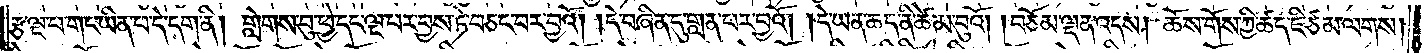རྩ་ལྔ་པ་གང་ཡིན་པ་དེ་དག་ནི། གླེགས་བུ་ཕྱེ་དང་ལྔ་པར་བྱས་ཏེ་བཅང་བར་བྱའོ། །དེ་བཞིན་དུ་གླན་པར་བྱའོ། །དེ་ཡན་ཆད་ནི་ཚེམ་བུའོ། །བཅོམ་ལྡན་འདས། ཆོས་གོས་ཀྱི་ཚད་ཇི་ཙམ་ལགས།
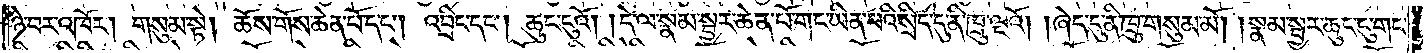ཉེ་བར་འཁོར། གསུམ་སྟེ། ཆོས་གོས་ཆེན་པོ་དང༌། འབྲིང་དང༌། ཆུང་ངུའོ། །དེ་ལ་སྣམ་སྦྱར་ཆེན་པོ་གང་ཡིན་པའི་སྲིང་དུ་ནི་ཁྲུ་ལྔའོ། །ཞེང་དུ་ནི་ཁྲུ་གསུམ་མོ། །སྣམ་སྦྱར་ཆུང་ངུ་གང་
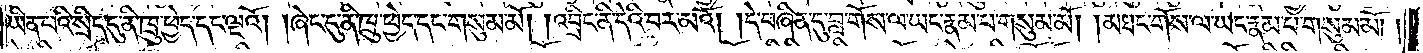ཡིན་པའི་སྲིད་དུ་ནི་ཁྲུ་ཕྱེད་དང་ལྔའོ། །ཞེང་དུ་ནི་ཁྲུ་ཕྱེད་དང་གསུམ་མོ། །འབྲིང་ནི་དེའི་བར་མའོ། །དེ་བཞིན་དུ་བླ་གོས་ལ་ཡང་རྣམ་པ་གསུམ་མོ། །མཐང་གོས་ལ་ཡང་རྣམ་པ་གསུམ་མོ། །
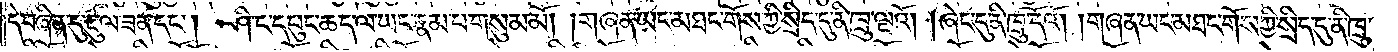དེ་བཞིན་དུ་རྡུ་ལ་ཟན་དང༌། ཤིང་དཔུང་ཆད་ལ་ཡང་རྣམ་པ་གསུམ་མོ། །གཞན་ཡང་མཐང་གོས་ཀྱི་སྲིད་དུ་ནི་ཁྲུ་ལྔའོ། །ཞེང་དུ་ནི་ཁྲུ་དོའོ། །གཞན་ཡང་མཐང་གོས་ཀྱི་སྲིད་དུ་ནི་ཁྲུ་
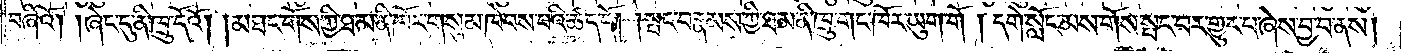བཞིའོ། །ཞེང་དུ་ནི་ཁྲུ་དོའོ། །མཐང་གོས་ཀྱི་ཐ་མ་ནི་ཁོར་གསུམ་ཁེབས་པའི་ཚད་དོ། །སྤང་བ་རྣམས་ཀྱི་ཐ་མ་ནི་ཁྲུ་གང་ཁོར་ཡུག་གོ། དགེ་སློང་མས་གོས་སྤང་བར་གྱུར་པ་ཞེས་བྱ་བ་ནས།
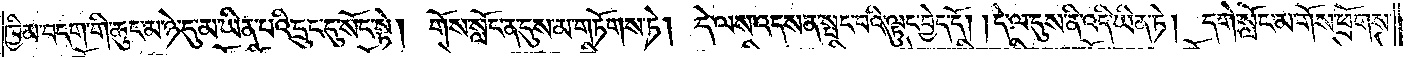ཁྱིམ་བདག་གི་ཆུང་མ་ཉེ་དུ་མ་ཡིན་པའི་དྲུང་དུ་སོང་སྟེ། གོས་སློང་ན་དུས་མ་གཏོགས་ཏེ། དེ་ལས་འདས་ན་སྤང་བའི་ལྟུང་བྱེད་དོ། །དེ་ལ་དུས་ནི་འདི་ཡིན་ཏེ། དགེ་སློང་མ་གོས་ཕྲོགས་
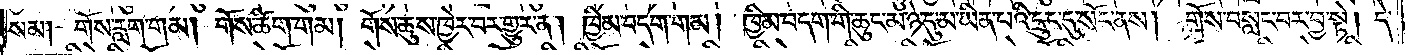སམ། གོས་རླག་གམ། གོས་ཚིག་གམ། གོས་ཆུས་ཁྱེར་བར་གྱུར་ན། ཁྱིམ་བདག་གམ། ཁྱིམ་བདག་གི་ཆུང་མ་ཉེ་དུ་མ་ཡིན་པའི་དྲུང་དུ་སོང་ནས། གོས་བསླང་བར་བྱ་སྟེ། དེ་
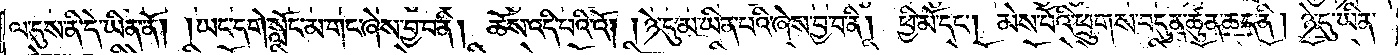ལ་དུས་ནི་དེ་ཡིན་ནོ། །ཡང་དགེ་སློང་མ་གང་ཞེས་བྱ་བ་ནི། ཆོས་འདི་པའི་འོ། །ཉེ་དུ་མ་ཡིན་པའི་ཞེས་བྱ་བ་ནི། ཕྱི་མོ་དང༌། མེས་པོའི་ཕྲུགས་བདུན་ཚུན་ཆད་ནི། ཉེ་དུ་ཡིན་
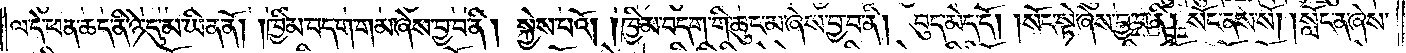ལ་དེ་ཕན་ཆད་ནི་ཉེ་དུ་མ་ཡིན་ནོ། །ཁྱིམ་བདག་གམ་ཞེས་བྱ་བ་ནི། སྐྱེས་པའོ། །ཁྱིམ་བདག་གི་ཆུང་མ་ཞེས་བྱ་བ་ནི། བུད་མེད་དོ། །སོང་སྟེ་ཞེས་བྱ་བ་ནི། སོང་ནས་སོ། །སློང་ན་ཞེས་
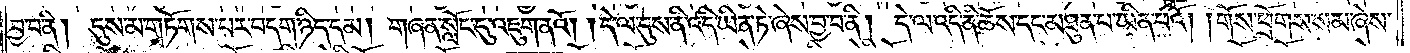བྱ་བ་ནི། དུས་མ་གཏོགས་པར་བདག་ཉིད་དམ། གཞན་སློང་དུ་འཇུག་ནའོ། །དེ་ལ་དུས་ནི་འདི་ཡིན་ཏེ་ཞེས་བྱ་བ་ནི། དེ་ལ་འདི་ནི་ཆོས་དང་མཐུན་པ་ཡིན་པའོ། །གོས་ཕྲོགས་སམ་ཞེས་
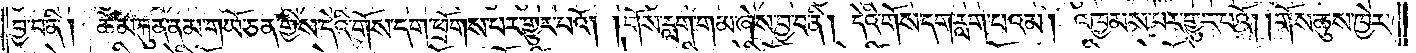བྱ་བ་ནི། ཆོམ་རྐུན་ནམ་གཡོ་ཅན་གྱིས་དེའི་གོས་དག་ཕྲོགས་པར་གྱུར་པའོ། །གོས་རླག་གམ་ཞེས་བྱ་བ་ནི། དེའི་གོས་དག་རླག་པའམ། འཁྱམས་པར་གྱུར་པའོ། །གོས་ཆུས་ཁྱེར་
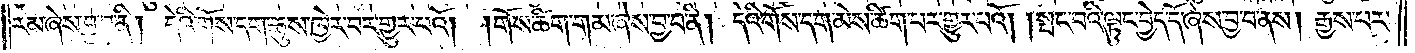རམ་ཞེས་བྱ་བ་ནི། དེའི་གོས་དག་ཆུས་ཁྱེར་བར་གྱུར་པའོ། །གོས་ཚིག་གམ་ཞེས་བྱ་བ་ནི། དེའི་གོས་དག་མེས་ཚིག་པར་གྱུར་པའོ། །སྤང་བའི་ལྟུང་བྱེད་དོ་ཞེས་བྱ་བ་ནས། རྒྱས་པར་
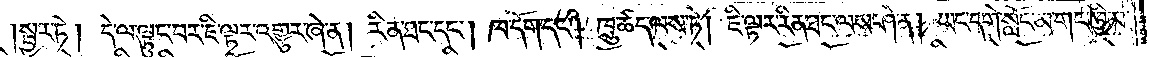སྦྱར་ཏེ། དེ་ལ་ལྟུང་བར་ཇི་ལྟར་འགྱུར་ཞེ་ན། རིན་ཐང་དང༌། ཁ་དོག་དང༌། ཁྲུ་ཚད་ལས་ཏེ། ཇི་ལྟར་རིན་ཐང་ལས་ཤེ་ན། ཡང་དགེ་སློང་མ་གང་ཁྱིམ་
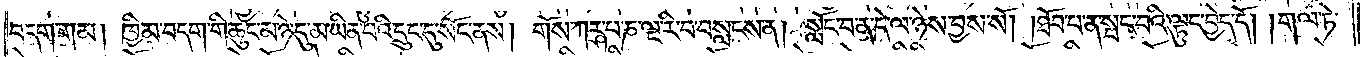བདག་གམ། ཁྱིམ་བདག་གི་ཆུང་མ་ཉེ་དུ་མ་ཡིན་པའི་དྲུང་དུ་སོང་ནས། གོས་ཀཪྴ་པ་ཎ་ལྔ་རི་བ་བསླངས་ན། སློང་བ་ན་དེ་ལ་ཉེས་བྱས་སོ། །ཐོབ་པ་ན་སྤང་བའི་ལྟུང་བྱེད་དོ། །གལ་ཏེ་
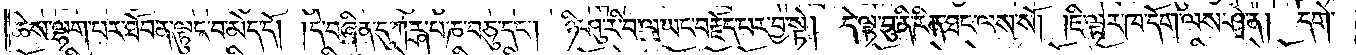ཆེས་ལྷག་པར་ཐོབ་ན་ལྟུང་བ་མེད་དོ། །དེ་བཞིན་དུ་ཀཪྴ་པ་ཎ་བཅུ་དང༌། ཉི་ཤུ་རི་བ་ལ་ཡང་བརྗོད་པར་བྱ་སྟེ། དེ་ལྟ་བུ་ནི་རིན་ཐང་ལས་སོ། །ཇི་ལྟར་ཁ་དོག་ལས་ཤེ་ན། དགེ་
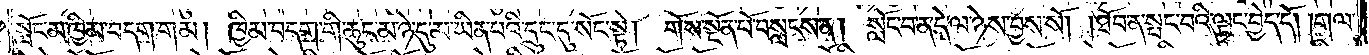སློང་མ་ཁྱིམ་བདག་གམ། ཁྱིམ་བདག་གི་ཆུང་མ་ཉེ་དུ་མ་ཡིན་པའི་དྲུང་དུ་སོང་སྟེ། གོས་སྔོན་པོ་བསླངས་ན། སློང་བ་ན་དེ་ལ་ཉེས་བྱས་སོ། །ཐོབ་ན་སྤང་བའི་ལྟུང་བྱེད་དོ། །གལ་
